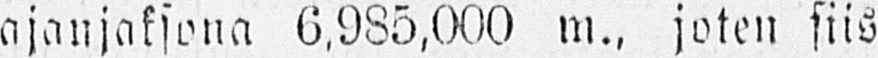ajanjaksona 6,985,000 m., joten siis
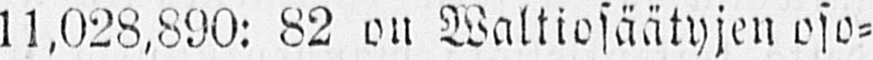11,028,890: 82 on Waltiosäätyjen oso-
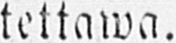tettawa.
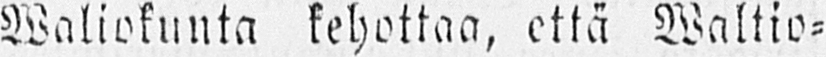Waliokunta kehottaa, että Waltio-
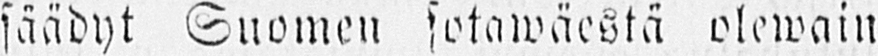säädyt Suomen sotawäestä olewain
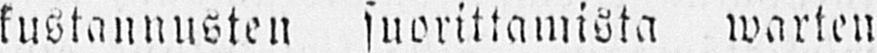kustannusten suorittamista marten
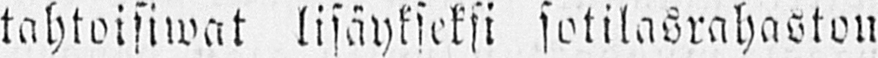tahtoisiwat lisäykieksi sotilasrahaston
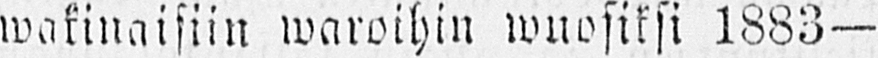wakinaisiin waroihin wuosiksi 1883—
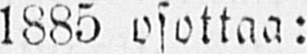1885 osottaa:
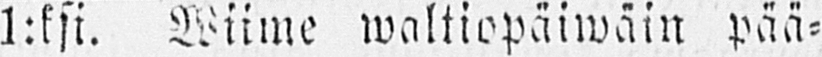1:ksi. Wiime waltiopäiwäin pää-
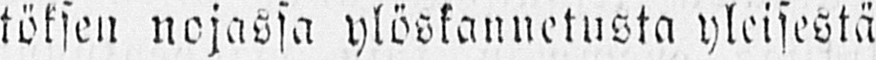töksen nojassa ylöskannetusta yleisestä
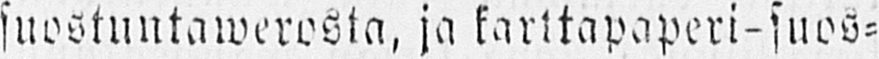suostuntawerosta, ja karttapaperi-suos-
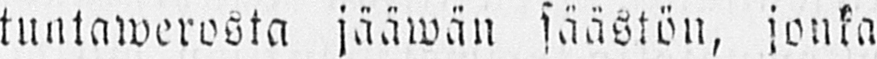tuntawerosta jääwän säästön, jonka
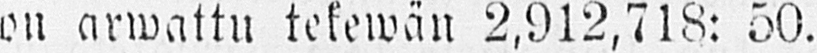on arwattu tekewän 2,912,718: 50.
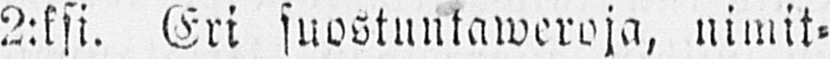2:ksi. Eri suostuntaweroja, nimit-
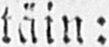täin:
